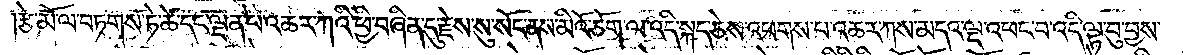།རྩེ་མོ་ལ་བཏགས་ཏེ་ཚེ་དང་ལྡན་པ་འཆར་ཀའི་ཕྱི་བཞིན་དུ་རྗེས་སུ་སོང་ནས་མིའོ་ཅོག་ལ་འདི་སྐད་ཅེས་འཕགས་པ་འཆར་ཀས་མདའ་ལྔ་འཕང་བ་འདི་ལྟ་བུ་བྱས་
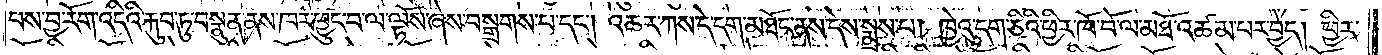པས་བྱ་རོག་འདིའི་རྐུབ་ཏུ་བ་སྣུན་ནས་ཁར་ཕྱུང་བ་ལ་ལྟོས་ཞེས་བསྒྲགས་པ་དང༌། འཆར་ཀས་དེ་དག་མཐོང་ནས་དེས་སྨྲས་པ། ཁྱེའུ་དག་ཅིའི་ཕྱིར་ཁོ་བོ་ལ་མཐོ་འཚམ་པར་བྱེད། ཕྱིར་
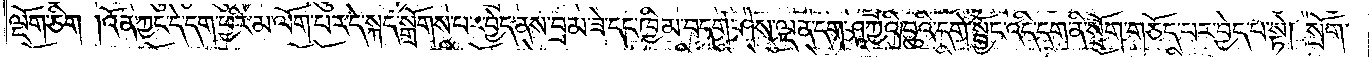ལྡོག་ཅིག །འོན་ཀྱང་དེ་དག་ཕྱིར་མ་ལོག་པར་དེ་སྐད་སྒྲོགས་པར་བྱེད་ནས་བྲམ་ཟེ་དང་ཁྱིམ་བདག་ཤེས་ལྡན་དག་ཤཱཀྱའི་བུའི་དགེ་སྦྱོང་འདི་དག་ནི་སྲོག་གཅོད་པར་བྱེད་པ་སྟེ། སྲོག་
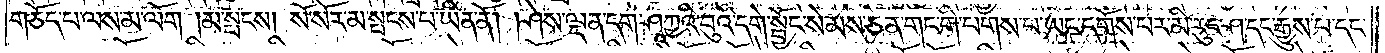གཅོད་པ་ལས་མ་ལོག །མ་སྤངས། སོ་སོར་མ་སྤངས་པ་ཡིན་ནོ། །ཤེས་ལྡན་དག་ཤཱཀྱའི་བུའི་དགེ་སྦྱོང་སེམས་ཅན་གང་གི་པགས་པ་ཡང་དགོས་པར་མི་རུང་ཤ་དང་རྒྱུས་པ་དང་
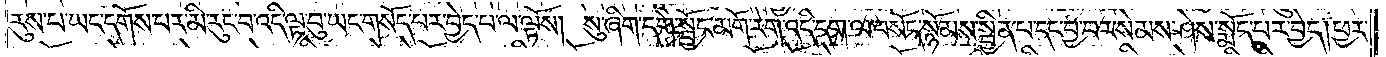རུས་པ་ཡང་དགོས་པར་མི་རུང་བ་འདི་ལྟ་བུ་ཡང་གསོད་པར་བྱེད་པ་ལ་ལྟོས། སུ་ཞིག་དགེ་སྦྱོང་མགོ་རེག་འདི་དག་ལ་བསོད་སྙོམས་སྦྱིན་པ་དང་བྱ་བར་སེམས་ཤེས་སྨོད་པར་བྱེད། ཕྱར་
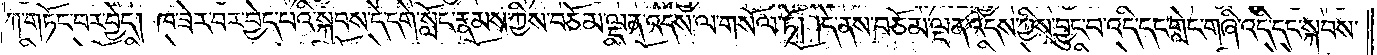ཀ་གཏོང་བར་བྱེད། ཁ་ཟེར་བར་བྱེད་པའི་སྐབས་དེ་དགེ་སློང་རྣམས་ཀྱིས་བཅོམ་ལྡན་འདས་ལ་གསོལ་ཏོ། །དེ་ནས་བཅོམ་ལྡན་འདས་ཀྱིས་བྱུང་བ་འདི་དང་གླེང་གཞི་འདི་དང་སྐབས་
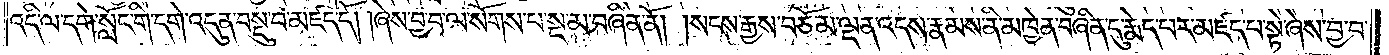འདི་ལ་དགེ་སློང་གི་དགེ་འདུན་བསྡུ་བ་མཛད་དོ། །ཞེས་བྱ་བ་ལ་སོགས་པ་སྔ་མ་བཞིན་ནོ། །སངས་རྒྱས་བཅོམ་ལྡན་འདས་རྣམས་ནི་མཁྱེན་བཞིན་དུ་རྨེད་པར་མཛད་པ་སྟེ་ཞེས་བྱ་བ་
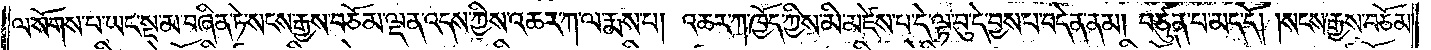ལ་སོགས་པ་ཡང་སྔ་མ་བཞིན་ཏེ་སངས་རྒྱས་བཅོམ་ལྡན་འདས་ཀྱིས་འཆར་ཀ་ལ་རྨས་པ། འཆར་ཀ་ཁྱོད་ཀྱིས་མི་མཛེས་པ་དེ་ལྟ་བུ་དེ་བྱས་པ་བདེན་ནམ། བཙུན་པ་མད་དོ། །སངས་རྒྱས་བཅོམ་
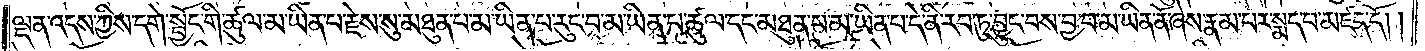ལྡན་འདས་ཀྱིས་དགེ་སྦྱོང་གི་ཚུལ་མ་ཡིན་པ་རྗེས་སུ་མཐུན་པ་མ་ཡིན་པ་རུང་བ་མ་ཡིན་པ་ཚུལ་དང་མཐུན་པ་མ་ཡིན་པ་དེ་ནི་རབ་ཏུ་བྱུང་བས་བྱ་བ་མ་ཡིན་ནོ་ཞེས་རྣམ་པར་སྨད་པ་མཛད་དོ། །
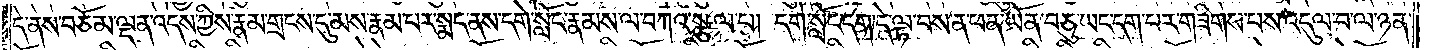དེ་ནས་བཅོམ་ལྡན་འདས་ཀྱིས་རྣམ་གྲངས་དུ་མས་རྣམ་པར་སྨད་ནས་དགེ་སློང་རྣམས་ལ་བཀའ་སྩལ་པ། དགེ་སློང་དག་དེ་ལྟ་བས་ན་ཕན་ཡོན་བཅུ་ཡང་དག་པར་གཟིགས་པས་འདུལ་བ་ལ་ཉན་
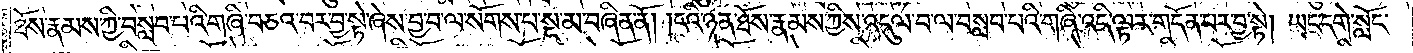ཐོས་རྣམས་ཀྱི་བསླབ་པའི་གཞི་བཅའ་བར་བྱ་སྟེ་ཞེས་བྱ་བ་ལ་སོགས་པ་སྔ་མ་བཞིན་ནོ། །ངའི་ཉན་ཐོས་རྣམས་ཀྱིས་འདུལ་བ་ལ་བསླབ་པའི་གཞི་འདི་ལྟར་གདོན་པར་བྱ་སྟེ། ཡང་དགེ་སློང་
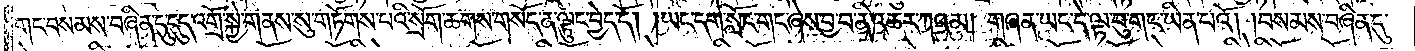གང་བསམས་བཞིན་དུ་དུད་འགྲོ་སྐྱེ་གནས་སུ་གཏོགས་པའི་སྲོག་ཆགས་གསོད་ན་ལྟུང་བྱེད་དོ། །ཡང་དགེ་སློང་གང་ཞེས་བྱ་བ་ནི་འཆར་ཀའམ། གཞན་ཡང་དེ་ལྟ་བུ་གང་ཡིན་པའོ། །བསམས་བཞིན་དུ་
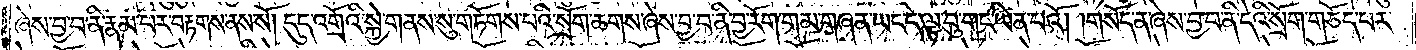ཞེས་བྱ་བ་ནི་རྣམ་པར་བརྟགས་ནས་སོ། །དུད་འགྲོའི་སྐྱེ་གནས་སུ་གཏོགས་པའི་སྲོག་ཆགས་ཞེས་བྱ་བ་ནི་བྱ་རོག་གམ་གཞན་ཡང་དེ་ལྟ་བུ་གང་ཡིན་པའོ། །གསོད་ན་ཞེས་བྱ་བ་ནི་དེའི་སྲོག་གཅོད་པར་
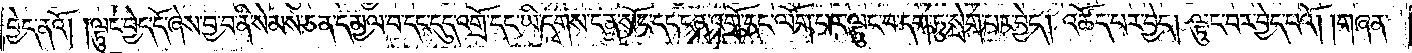བྱེད་ནའོ། །ལྟུང་བྱེད་དོ་ཞེས་བྱ་བ་ནི་སེམས་ཅན་དམྱལ་བ་དང་དུད་འགྲོ་དང་ཡི་དྭགས་ངན་སོང་དང་ངན་འགྲོ་དང་ལོག་པར་ལྟུང་བ་དག་ཏུ་སྲེག་པར་བྱེད། འཚོད་པར་བྱེད། ལྟུང་བར་བྱེད་པའོ། །གཞན་
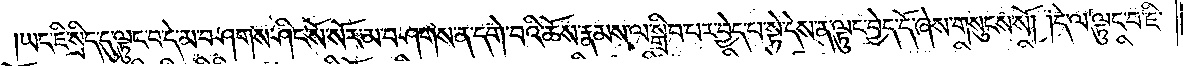ཡང་ཇི་སྲིད་དུ་ལྟུང་བ་དེ་མ་བཤགས་ཤིང་སོ་སོར་མ་བཤགས་ན་དགེ་བའི་ཆོས་རྣམས་ལ་སྒྲིབ་པར་བྱེད་པ་སྟེ་དེས་ན་ལྟུང་བྱེད་དོ་ཞེས་གསུངས་སོ། །དེ་ལ་ལྟུང་བ་ཇི་
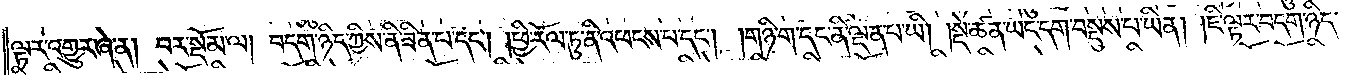ལྟར་འགྱུར་ཞེ་ན། བར་སྡོམ་ལ། བདག་ཉིད་ཀྱིས་ནི་ཟིན་པ་དང༌། །ཕྱི་རོལ་ཏུ་ནི་འཕངས་པ་དང༌། །གཉི་ག་དང་ནི་ལྡན་པ་ཡི། །སྡེ་ཚན་ཡང་དག་བསྡུས་པ་ཡིན། །ཇི་ལྟར་བདག་ཉིད་
